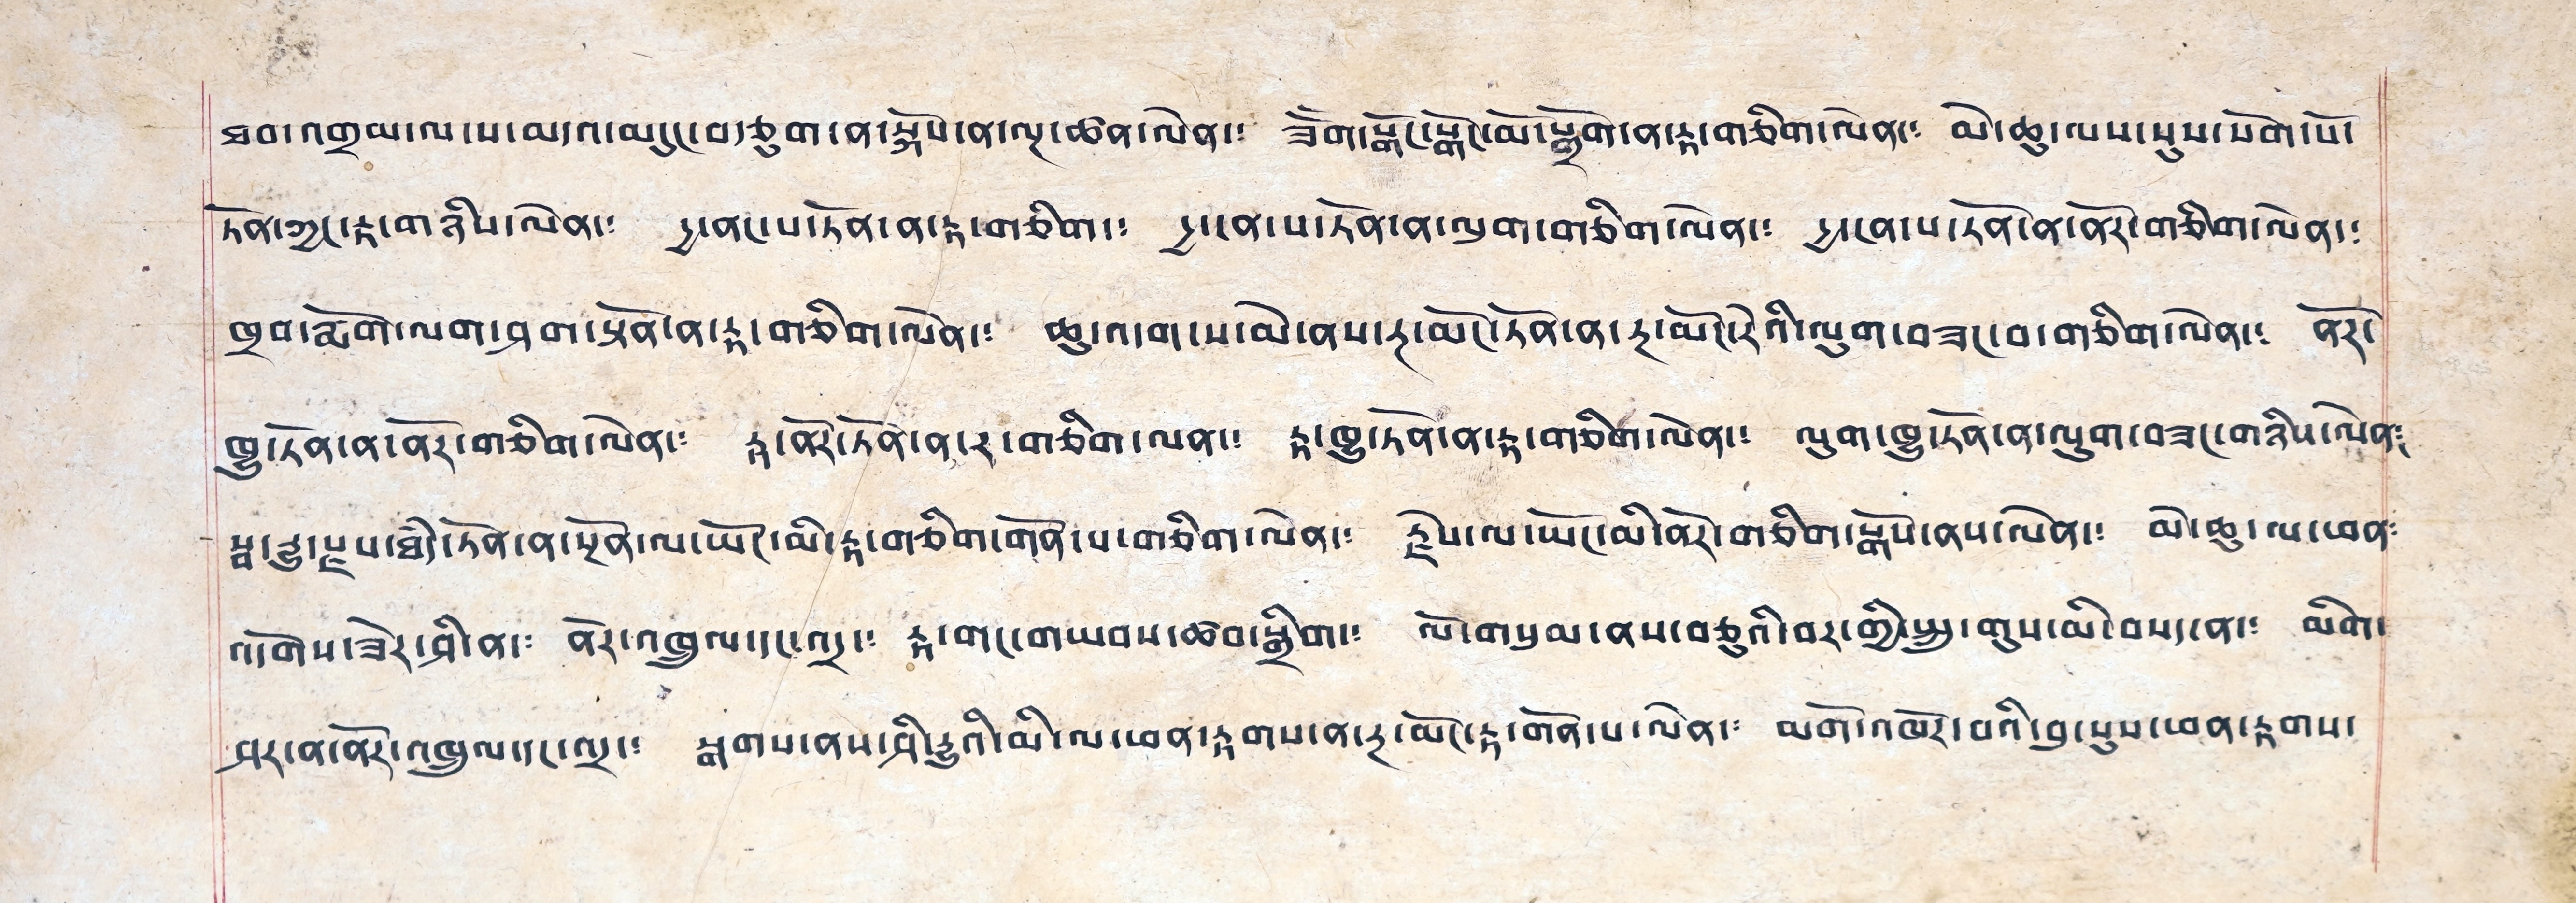ཐབ་འགྲམ་ལ་ས་མདའ་མདུང་བརྩུག་ན་སྐོས་ན་ལྔ་ཚན་ལེན་༴ ཟོགོ་སྒོང་སྒོང་མོ་སྒྲོག་ན་རྟ་གཅིག་ལེན་༴ མེ་ཆུ་ལས་སུས་སོག་པོ་
ཏོན་ཀྱང་རྟ་གཉིས་ལེན་༴ དྱ་ནང་པ་ཏོན་ན་རྟ་གཅིག་༴ དྱ་ངན་པ་ཏོན་ན་ལུག་གཅིག་ལེན་༴ དྱ་ངག་པ་ཏོན་ན་ནོར་གཅིག་ལེན་༴
ཁྲབ་རྨོག་ལག་ཤག་སྟོན་ན་རྟ་གཅིག་ལེན་༴ ཆུ་འདབ་ས་མེ་ནས་རྔ་མོང་ཏོན་ན་རྔ་མོང་རེའི་ལུག་བཟང་བ་གཅིག་ལེན་༴ ནོར་
ཁྱུ་ཏོན་ན་ནོར་གཅིག་ལེན་༴ རྟ་བོར་ཏོན་ན་ར་གཅིག་ལན་༴ རྟ་ཁྱུ་ཏོན་ན་རྟ་གཅིག་ལེན་༴ ལུག་ཁྱུ་ཏོན་ན་ལུག་བཟང་གཉིས་ལེན་༴
སྦ་རྒྱུ་རྗེས་ཐཾད་ཏོན་ན་སྔོན་ལ་ཡོང་མི་རྟ་གཅིག་གོན་པ་གཅིག་ལེན་༴ རྗེས་ལ་ཡོང་མི་ནོར་གཅིག་སྒོས་ནས་ལེན་༴ མེ་ཆུ་ལ་ཕན༴
འདོགས་ཟེར་ཤི་ན་༴ ནོར་འཁྲུལ་དང་འདྲ་༴ རྟ་གང་གཡབས་ཚབ་སྒྲིག་༴ ལོ་གསུམ་ནས་བཅུའི་བར་གྱི་སྤུ་གུས་མི་བསད་ན་༴ མིག་
ཤར་ན་ནོར་འཁྲུལ་དང་འདྲ་༴ སྒགས་ནས་ཤི་རྒྱུའི་མི་ལ་ཕན་རྟགས་ན་རྔ་མོང་རྟ་གོན་པ་ལེན་༴ མགོ་འཁོར་བའི་བུ་སུས་ཕན་རྟགས་
